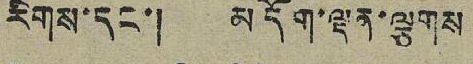རིགས་དང་། མདོག་ལྡན་ལྕགས
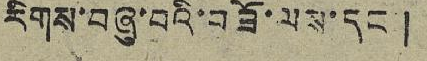རིགས་བཞུ་བའི་བཟོ་ལས་དང་།
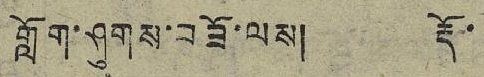གློག་ཤུགས་བཟོ་ལས། རྡོ་
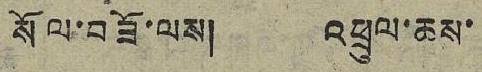སོལ་བཟོ་ལས། འཕྲུལ་ཆས་
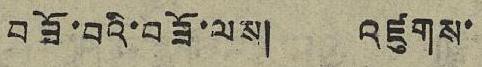བཟོ་བའི་བཟོ་ལས། འཛུགས་
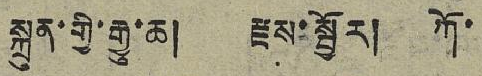སྐྲུན་གྱི་རྒྱུ་ཆ། རྫས་སྦྱོར། ཀོ་
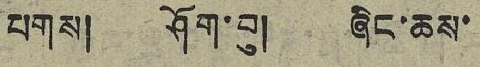པགས། ཤོག་བུ། ཞིང་ཆས་
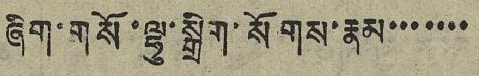ཞིག་གསོ་ལྷུ་སྒྲིག་སོགས་རྣམ་་་་་་་
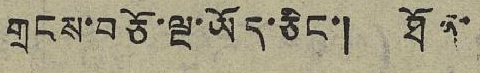གྲངས་བཅོ་ལྔ་ཡོད་ཅིང་། ཐོན་
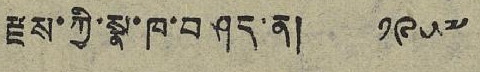རྫས་ཀྱི་སྣ་ཁ་བཤད་ན། ༡༩༥༧
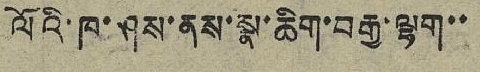ལོའི་ཁ་ཤས་ནས་སྣ་ཆིག་བརྒྱ་ལྷག་་
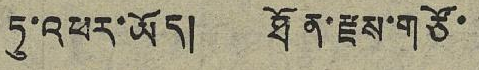ཏུ་འཕར་ཡོད། ཐོན་རྫས་གཙོ་
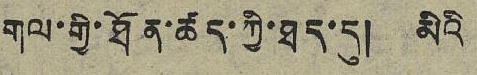གལ་གྱི་ཐོན་ཚད་ཀྱི་ཐད་དུ། མིའི་
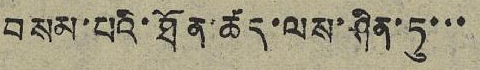བསམ་པའི་ཐོན་ཚད་ལས་ཤིན་ཏུ་་་
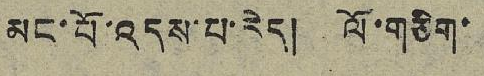མང་པོ་འདས་པ་རེད། པོ་གཅིག་
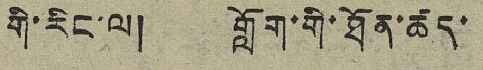གི་རིང་ལ། གློག་གི་ཐོན་ཚད་
